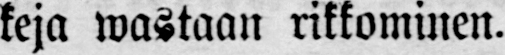keja wastaan rikkominen.
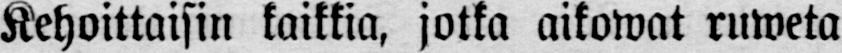Kehoittaisin kaikkia, jotka aikowat ruweta
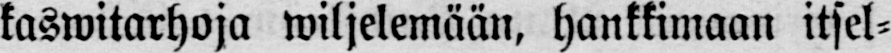kaswitarhoja wiljelemään, hankkimaan itsel-
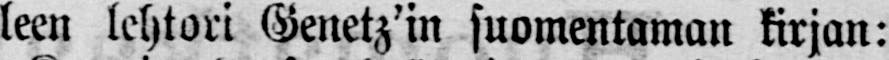leen lehtori Genetz'in suomentaman kirjan:
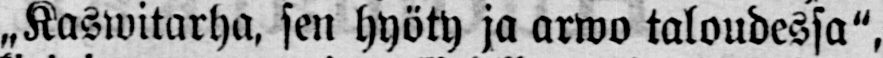„Kaswitarha, sen hyöty ja arwo taloudessa",
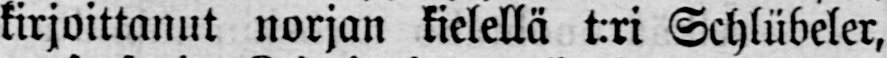kirjoittanut norjan kielellä t:ri Schlübeler,
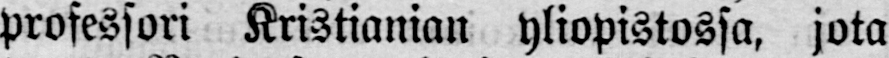Professori Kristianian yliopistossa, jota
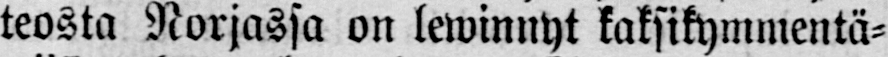teosta Norjassa on lewinnyt kaksikymmentä-
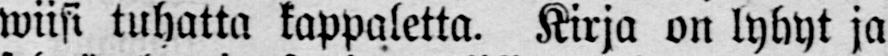wiisi tuhatta kappaletta. Kirja on lyhyt ja
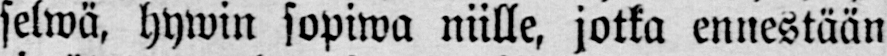selwä, hywin sopiwa niille, jotka ennestään
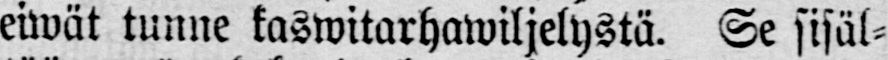eiwät tune kaswitarhawiljelystä. Se sisäl-
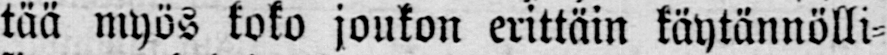tää myös koko joukon erittäin käytännölli-
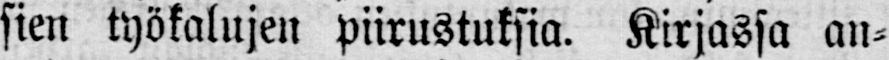sien työkalujen piirustuksia. Kirjassa an-
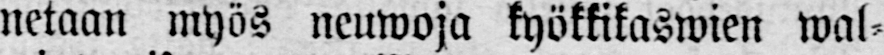netaan myös neuwoja kyökkikaswien wal-
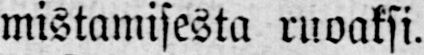mistamisesta ruoaksi.
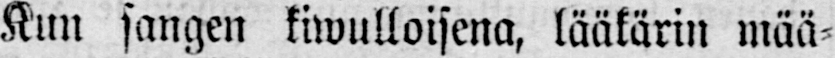Kuu sangen kiwulloisena, lääkärin mää-
